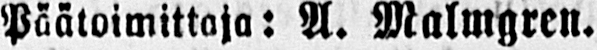Päätoimittaja: A. Malmgren.
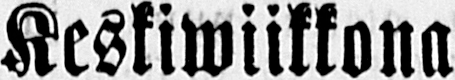Keskiwiikkona
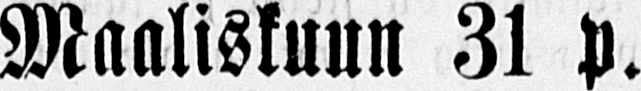Maaliskuun 31 p.
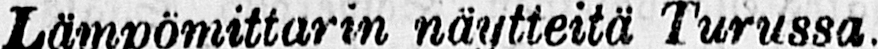Lämpömittarin näytteitä Turussa.
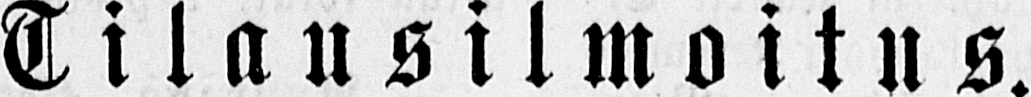Tilausilmoitus.
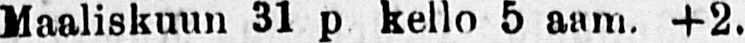Maaliskuun 31 p kello 5 aam. † 2.
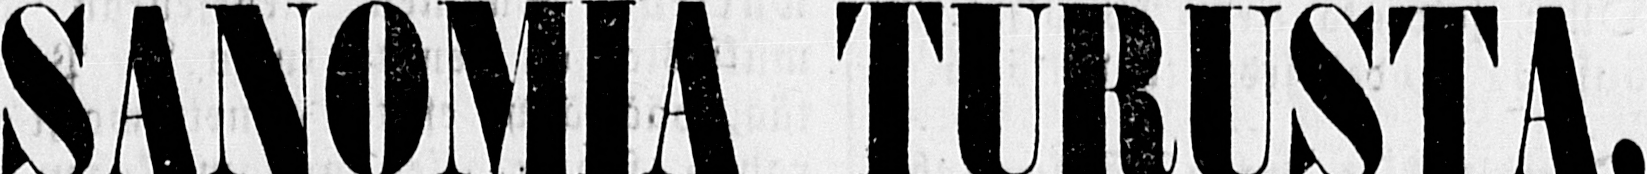SANOMIA TURUSTA.
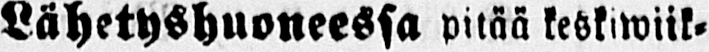Lähetyshuoneessa pitää keskiwiik-
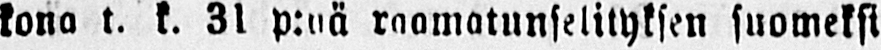kona t. k. 31 p:uä raamatunselityksen suomeksi
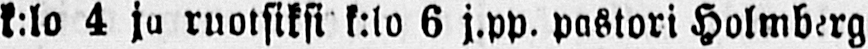k:lo 4 ja ruotsiksi k:lo 6 j.pp. pastori Holmberg
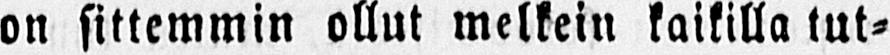on sittemmin ollut melkein kaikilla tut-
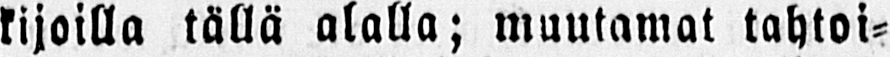kijoilla tällä alalla; muutamat tahtoi-
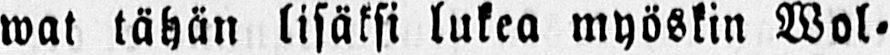wat tähän lisäksi lukea myöskin Wol-
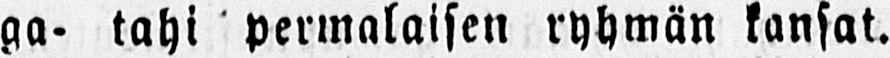ga- tahi permalaisen ryhmän kansat.
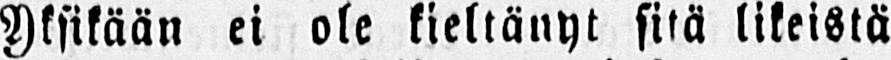Yksikään ei ole kieltänyt sitä likeistä
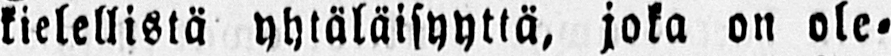kielellistä yhtäläisyyttä, joka on ole-
